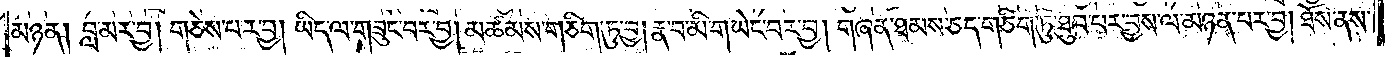མཉན། བླ་མར་བྱ། གཅེས་པར་བྱ། ཡིད་ལ་གཟུང་བར་བྱ། མཚམས་གཅིག་ཏུ་བྱ། རྣ་བ་མི་གཡེང་བར་བྱ། གཞན་ཐམས་ཅད་གཅིག་ཏུ་ཐུབ་པར་བྱས་ལ་མཉན་པར་བྱ། ཐོས་ནས་
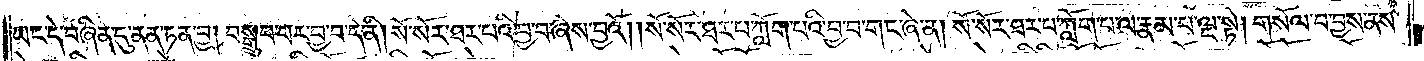ཡང་དེ་བཞིན་དུ་ནན་ཏན་བྱ། བསྒྲུབ་པར་བྱ་བ་དེ་ནི། སོ་སོར་ཐར་པའི་བྱ་བ་ཞེས་བྱའོ། །སོ་སོར་ཐར་པ་ཀློག་པའི་བྱ་བ་གང་ཞེ་ན། སོ་སོར་ཐར་པ་ཀློག་པ་ལ་རྣམ་པ་ལྔ་སྟེ། གསོལ་བ་བྱས་ནས་
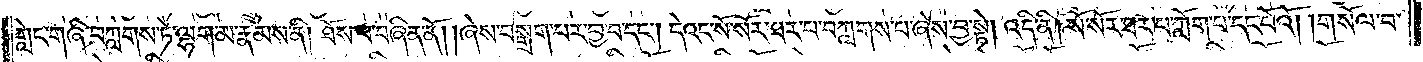གླེང་གཞི་བཀླགས་ཏེ་ལྷག་མ་རྣམས་ནི། ཐོས་པ་བཞིན་ནོ། །ཞེས་བསྒྲག་པར་བྱ་བ་དང༌། དེའང་སོ་སོར་ཐར་པ་བཀླགས་པ་ཞེས་བྱ་སྟེ། འདི་ནི། སོ་སོར་ཐར་པ་ཀློག་པ་དང་པོའོ། །གསོལ་བ་
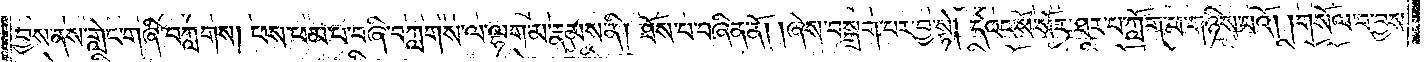བྱས་ནས་གླེང་གཞི་བཀླགས། ཕས་ཕམ་པ་བཞི་བཀླགས་ལ་ལྷག་མ་རྣམས་ནི། ཐོས་པ་བཞིན་ནོ། །ཞེས་བསྒྲག་པར་བྱ་སྟེ། དེའང་སོ་སོར་ཐར་པ་ཀློག་པ་གཉིས་པའོ། །གསོལ་བ་བྱས་
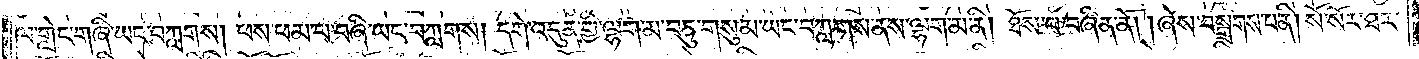ལ་གླེང་གཞི་ཡང་བཀླགས། ཕས་ཕམ་པ་བཞི་ཡང་བཀླགས། དགེ་འདུན་གྱི་ལྷག་མ་བཅུ་གསུམ་ཡང་བཀླགས་ནས་ལྷག་མ་ནི། ཐོས་པ་བཞིན་ནོ། །ཞེས་བསྒྲགས་པ་ནི། སོ་སོར་ཐར་
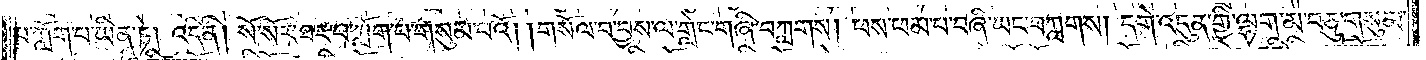པ་ཀློག་པ་ཡིན་ཏེ། འདི་ནི། སོ་སོར་ཐར་པ་ཀློག་པ་གསུམ་པའོ། །གསོལ་བ་བྱས་ལ་གླེང་གཞི་བཀླགས། ཕས་ཕམ་པ་བཞི་ཡང་བཀླགས། དགེ་འདུན་གྱི་ལྷག་མ་བཅུ་གསུམ་
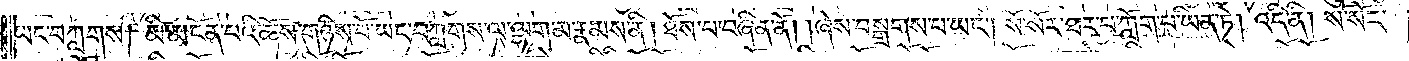ཡང་བཀླགས། མི་མངོན་པའི་ཆོས་གཉིས་པོ་ཡང་བཀླགས་ལ་ལྷག་མ་རྣམས་ནི། ཐོས་པ་བཞིན་ནོ། །ཞེས་བསྒྲགས་པ་ཡང༌། སོ་སོར་ཐར་པ་ཀློག་པ་ཡིན་ཏེ། འདི་ནི། སོ་སོར་
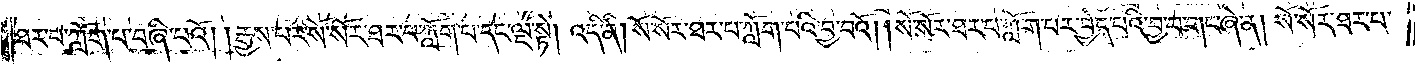ཐར་པ་ཀློག་པ་བཞི་པའོ། །རྒྱས་པར་སོ་སོར་ཐར་པ་ཀློག་པ་དང་ལྔ་སྟེ། འདི་ནི། སོ་སོར་ཐར་པ་ཀློག་པའི་བྱ་བའོ། །སོ་སོར་ཐར་པ་ཀློག་པར་བྱེད་པའི་བྱ་བ་གང་ཞེ་ན། སོ་སོར་ཐར་པ་
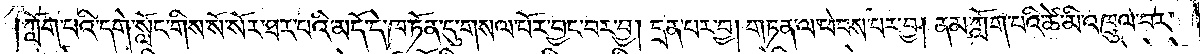ཀློག་པའི་དགེ་སློང་གིས་སོ་སོར་ཐར་པའི་མདོ་དེ་ཁ་ཏོན་དུ་གསལ་པོར་བྱང་བར་བྱ། དྲན་པར་བྱ། གཏན་ལ་ཕེབས་པར་བྱ། ནམ་ཀློག་པའི་ཚེ་མི་འཁྲུལ་བར་
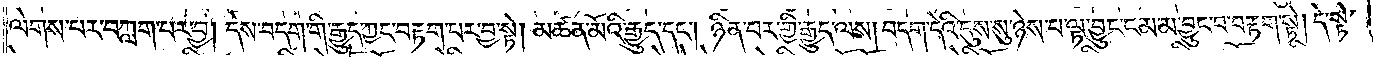ལེགས་པར་བཀླག་པར་བྱ། དེས་བདག་གི་རྒྱུད་ཀྱང་བརྟག་པར་བྱ་སྟེ། མཚན་མོའི་རྒྱུད་དང༌། ཉིན་པར་གྱི་རྒྱུད་ལས། བདག་དེའི་དུས་སུ་ཉེས་པ་ལྟ་བྱུང་ངམ་མ་བྱུང་བ་བརྟག་སྟེ། དེ་སྟེ་
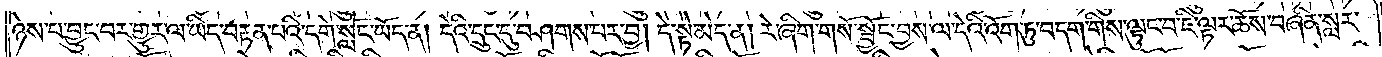ཉེས་པ་བྱུང་བར་གྱུར་ལ་ཡིད་བརྟན་པའི་དགེ་སློང་ཡོད་ན། དེའི་དྲུང་དུ་བཤགས་པར་བྱ། དེ་སྟེ་མེད་ན། རེ་ཞིག་གསོ་སྦྱོང་བྱས་ལ་དེའི་འོག་ཏུ་བདག་གིས་ལྟུང་བ་ཇི་ལྟར་ཆོས་བཞིན་སླར་
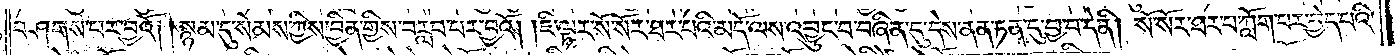བཤགས་པར་བྱའོ། །སྙམ་དུ་སེམས་ཀྱིས་བྱིན་གྱིས་བརླབ་པར་བྱའོ། །ཇི་ལྟར་སོ་སོར་ཐར་པའི་མདོ་ལས་འབྱུང་བ་བཞིན་དུ་དེས་ནན་ཏན་དུ་བྱ་བ་དེ་ནི། སོ་སོར་ཐར་པ་ཀློག་པར་བྱེད་པའི་
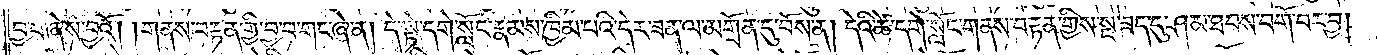བྱ་བ་ཞེས་བྱའོ། །གནས་བརྟན་གྱི་བྱ་བ་གང་ཞེ་ན། དེ་སྟེ་དགེ་སློང་རྣམས་ཁྱིམ་པའི་དེར་ཟན་ལ་མགྲོན་དུ་བོས་ན། དེའི་ཚེ་དགེ་སློང་གནས་བརྟན་གྱིས་སྔ་ཟད་དུ་ཤམ་ཐབས་བགོ་བར་བྱ།
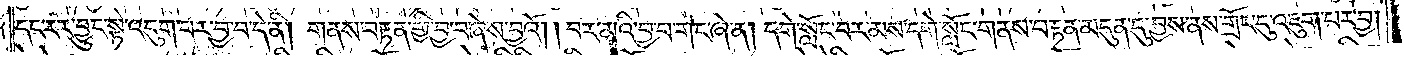དང་རར་བྱུང་སྟེ་འདུག་པར་བྱ་བ་དེ་ནི། གནས་བརྟན་གྱི་བྱ་བ་ཞེས་བྱའོ། །བར་མའི་བྱ་བ་གང་ཞེ་ན། དགེ་སློང་བར་མས་དགེ་སློང་གནས་བརྟན་མདུན་དུ་བྱས་ནས་གྲོང་དུ་འཇུག་པར་བྱ།
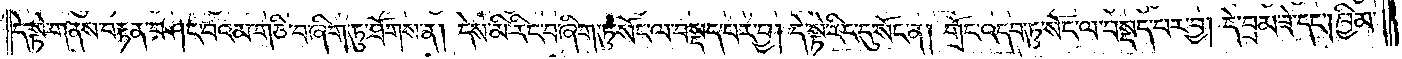དེ་སྟེ་གནས་བརྟན་བཤང་བའམ་གཅི་བ་ཞིག་ཏུ་ཐོགས་ན། དེས་མི་རིང་བ་ཞིག་ཏུ་སོང་ལ་བསྡད་པར་བྱ། དེ་སྟེ་རིང་དུ་སོང་ན། གྲོང་འདབ་ཏུ་སོང་ལ་བསྡད་པར་བྱ། དེ་བྲམ་ཟེ་དང༌། ཁྱིམ་
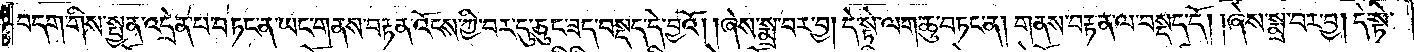བདག་གིས་སྤྱན་འདྲེན་པ་བཏང་ན་ཡང་གནས་བརྟན་འོངས་ཀྱི་བར་དུ་ཅུང་ཟད་བསྡད་དེ་བྱའོ། །ཞེས་སྨྲ་བར་བྱ། དེ་སྟེ་ལག་ཆུ་བཏང་ན། གནས་བརྟན་ལ་བསྡད་དོ། །ཞེས་སྨྲ་བར་བྱ། དེ་སྟེ་
